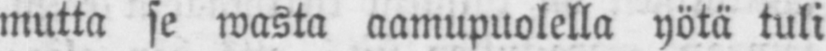mutta se wasta aamupuolella yötä tuli
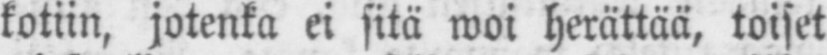kotiin, jotenka ei sitä woi herättää, toiset
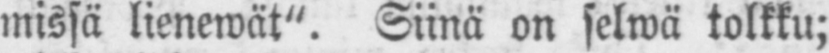missä lienewät". Siinä on selwä tolkku;
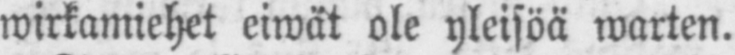wirkamiehet eiwät ole yleisöä warten.
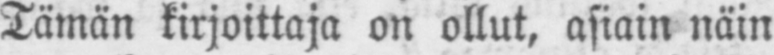Tämän kirjoittaja on ollut, asiain näin
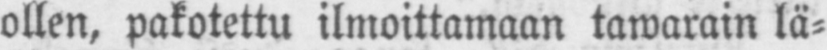ollen, pakotettu ilmoittamaan tawarain lä-
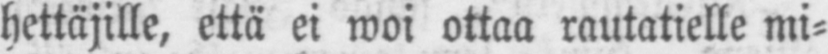hettäjille, että ei woi ottaa rautatielle mi-
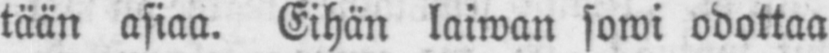tään asiaa. Eihän laiwan sowi odottaa
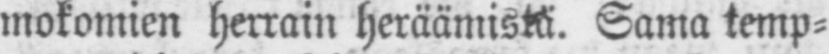mokomien herrain heräämistä. Sama temp-
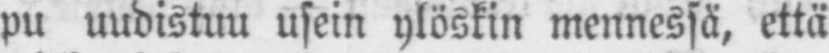pu uudistuu usein ylöskin mennessä, että
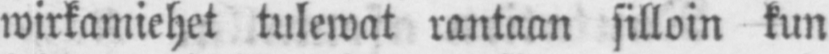wirkamiehet tulewat rantaan silloin kun
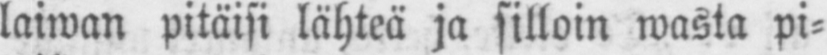laiwan pitäisi lähteä ja silloin wasta pi-
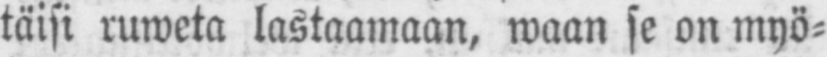täisi ruweta lastaamaan, waan se on myö-
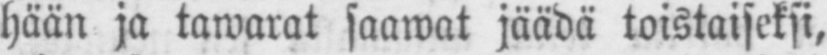hään ja tawarat saawat jäädä toistaiseksi,
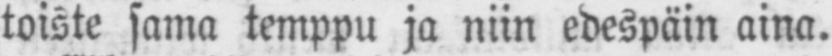toiste sama temppu ja niin edespäin aina.
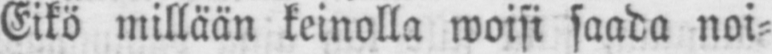Eikö millään keinolla woisi saada noi-
